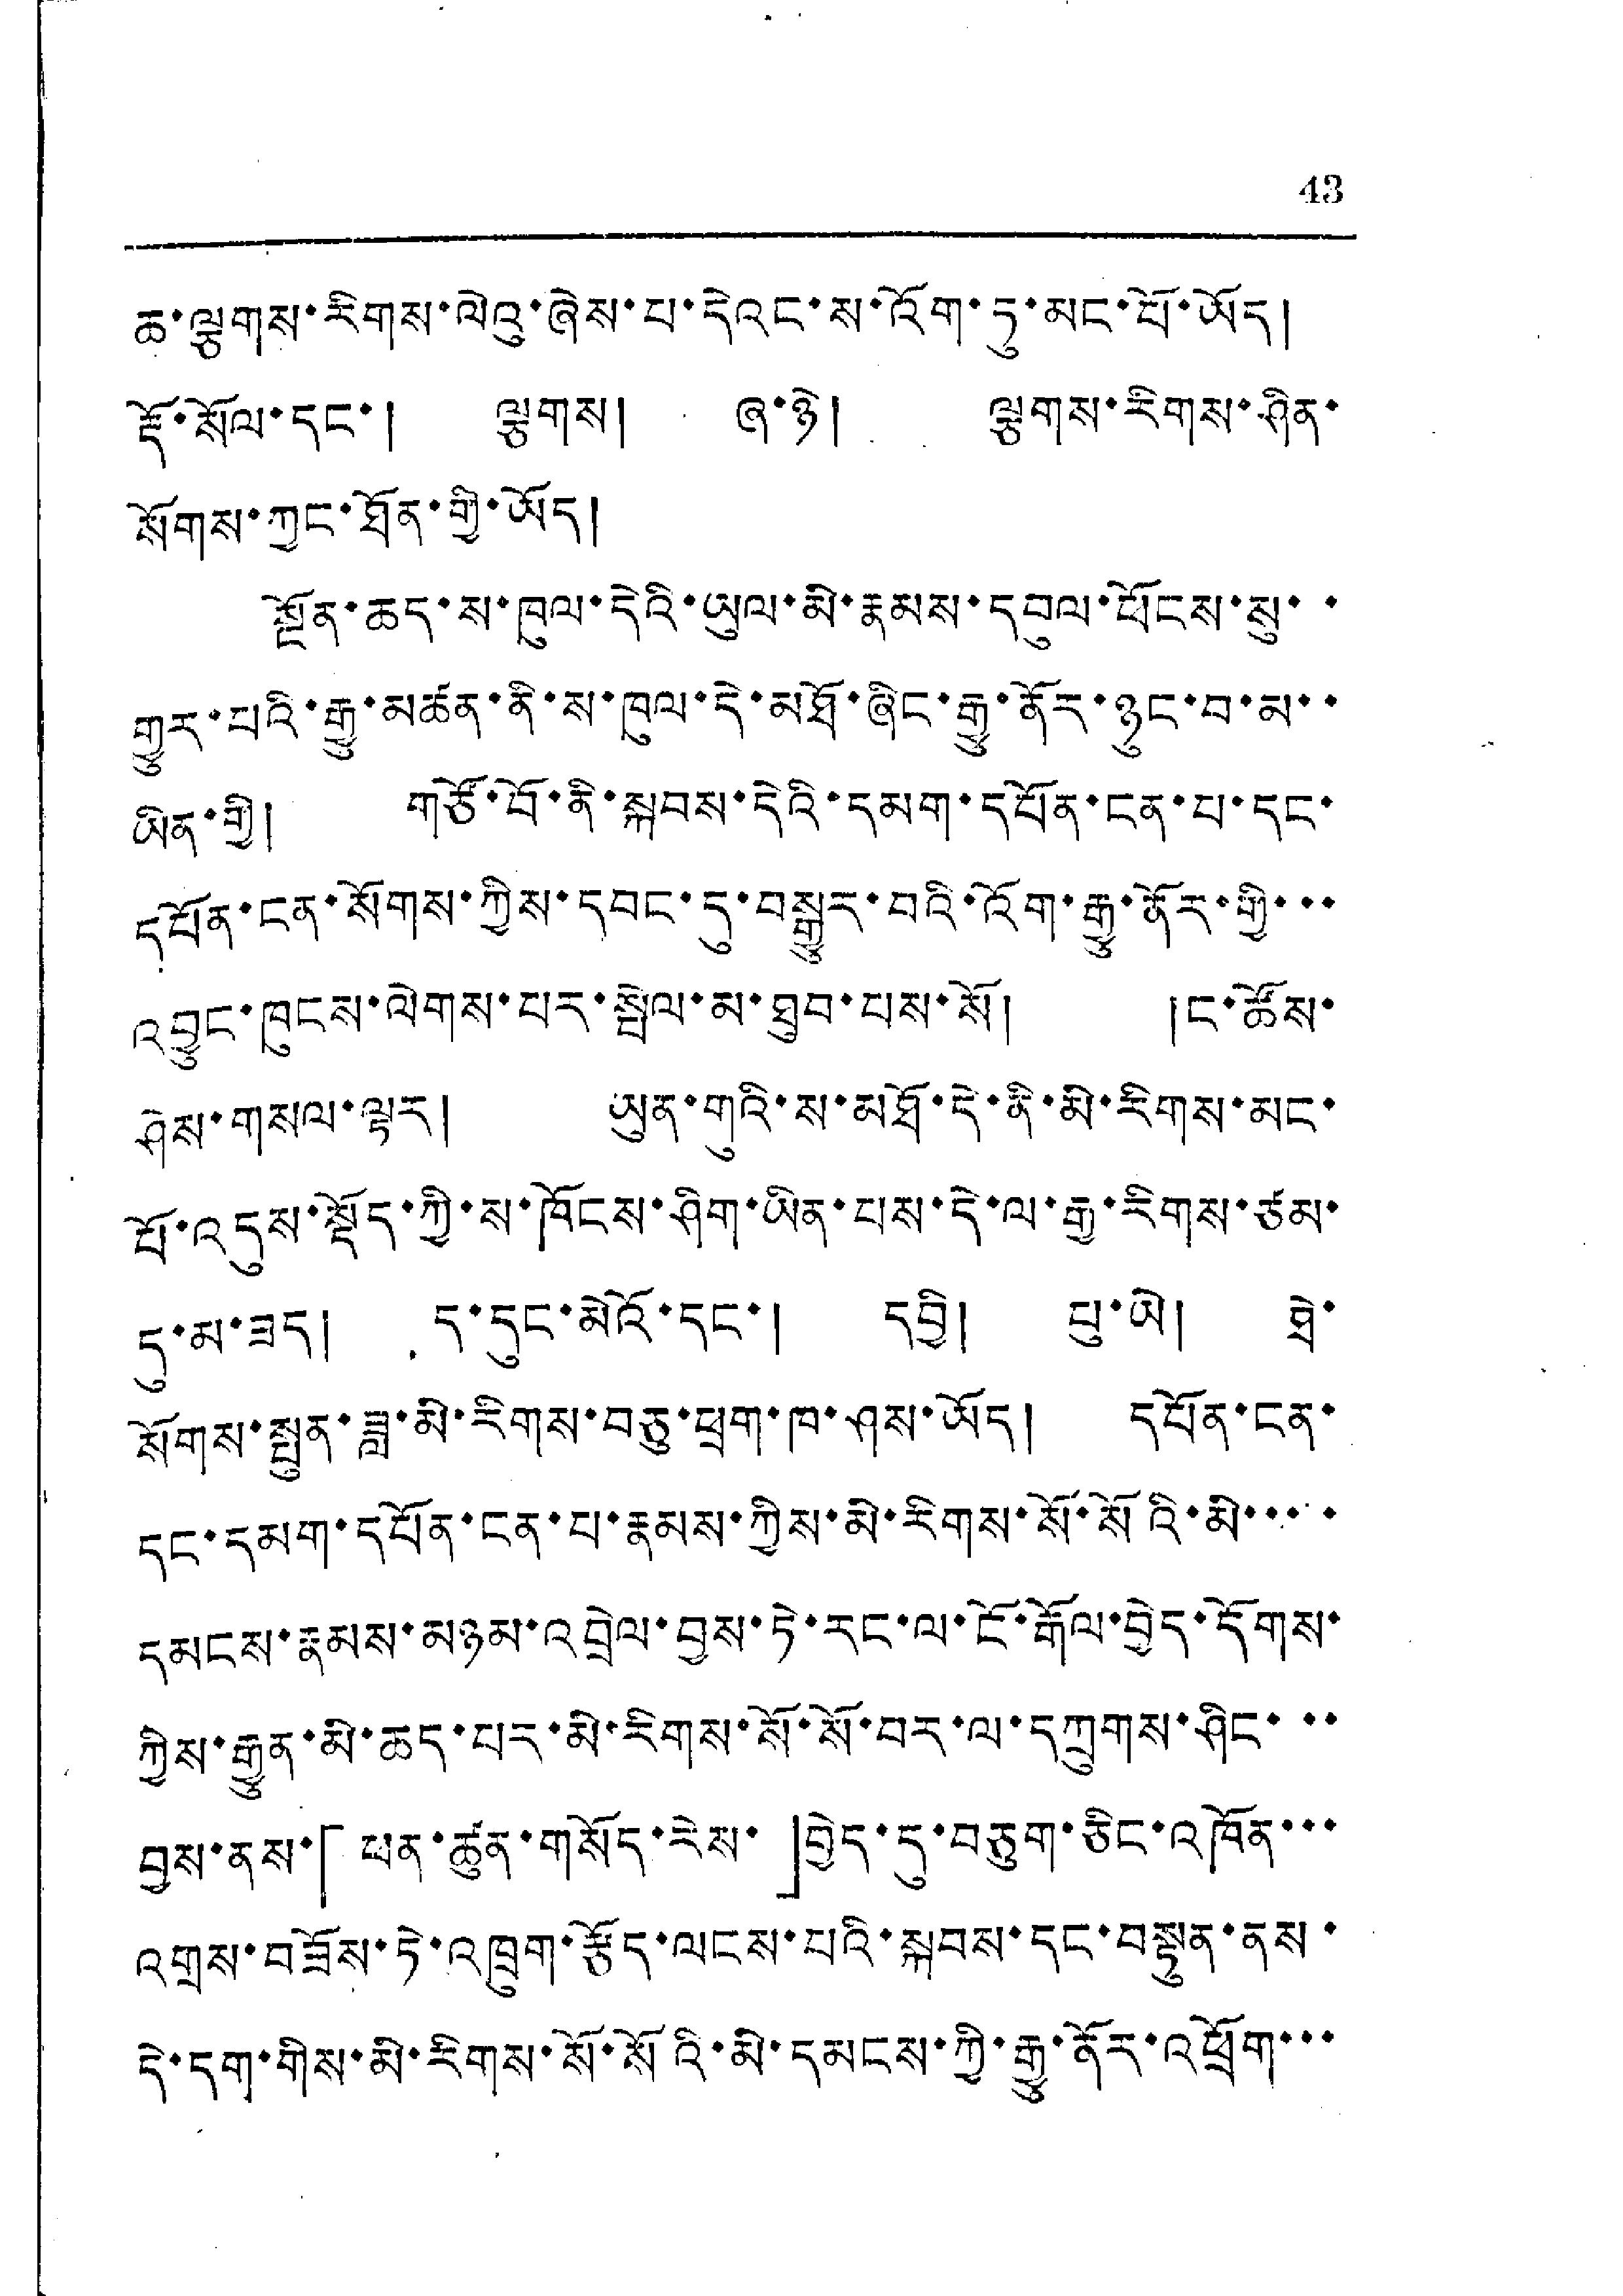43
ཆ་ལྕགས་རིགས་ལེའུ་ཞེས་པ་དེའང་ས་འོག་ཏུ་མང་པོ་ཡོད།
རྡོ་སོལ་དང་། ལྕགས། ཞ་ཉེ། ལྕགས་རིགས་ཤིན་
སོགས་ཀྱང་ཐོན་གྱི་ཡོད།
སྔོན་ཆད་ས་ཁུལ་དེའི་ཡུལ་མི་རྣམས་དབུལ་ཕོངས་སུ་་་
གྱུར་པའི་རྒྱུ་མཚན་ནི་ས་ཁུལ་དེ་མཐོ་ཞིང་རྒྱུ་ནོར་ཉུང་བ་མ་་
ཡིན་གྱི། གཙོ་བོ་ནི་སྐབས་དེའི་དམག་དཔོན་ངན་པ་དང་
དཔོན་ངན་སོགས་ཀྱིས་དབང་དུ་བསྒྱུར་བའི་འོག་རྒྱུ་ནོར་གྱི་་་
འབྱུང་ཁུངས་ལེགས་པར་སྤེལ་མ་ཐུབ་པས་སོ། །ང་ཚོས་
ཤེས་གསལ་ལྟར། ཡུན་གུའི་ས་མཐོ་དེ་ནི་མི་རིགས་མང་
པོ་འདུས་སྡོད་ཀྱི་ས་ཁོངས་ཤིག་ཡིན་པས་དེ་ལ་རྒྱ་རིགས་ཙམ་
དུ་མ་ཟད། ད་དུང་མེའོ་དང་། དབྱི། པུ་ཡེ། ཐེ་
སོགས་སྤུན་ཟླ་མི་རིགས་བཅུ་ཕྲག་ཁ་ཤས་ཡོད། དཔོན་ངན་
དང་དམག་དཔོན་ངན་པ་རྣམས་ཀྱིས་མི་རིགས་སོ་སོའི་མི་་་་་
དམངས་རྣམས་མཉམ་འབྲེལ་བྱས་ཏེ་རང་ལ་ངོ་རྒོལ་བྱེད་དོགས་
ཀྱིས་རྒྱུན་མི་ཆད་པར་མི་རིགས་སོ་སོ་བར་ལ་དཀྲུགས་ཤིང་་་
བྱས་ནས་「ཕན་ཚུན་གསོད་རེས་」ཁྱེད་དུ་བཅུག་ཅིང་འཁོན་་་
འགྲས་བཟོས་ཏེ་འཁྲུག་རྩོད་ལངས་པའི་སྐབས་དང་བསྟུན་ནས
དེ་དག་གིས་མི་རིགས་སོ་སོའི་མི་དམངས་ཀྱི་རྒྱུ་ནོར་འཕྲོག་་་
